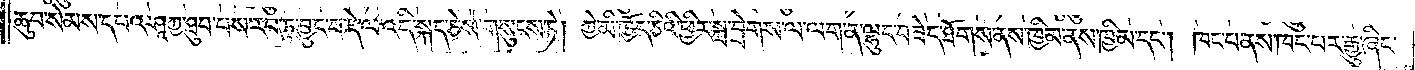ཆུབ་སེམས་དཔའ་ཤཱཀྱ་ཐུབ་པས་རབ་ཏུ་བྱུང་བ་དེ་ལ་འདི་སྐད་ཅེས་གསུངས་ཏེ། ཀྱེ་མི་ཁྱོད་ཅིའི་ཕྱིར་སྐྲ་བྲེགས་ལ་ལག་ན་ལྷུང་བཟེད་ཐོགས་ནས་ཁྱིམ་ནས་ཁྱིམ་དང༌། ཁང་པ་ནས་ཁང་པར་རྒྱུ་ཞིང་
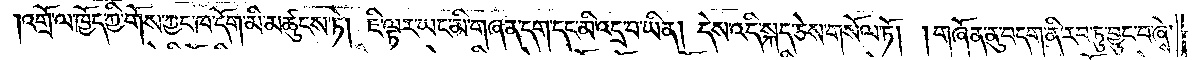།འགྲོ་ལ་ཁྱོད་ཀྱི་གོས་ཀྱང་ཁ་དོག་མི་མཚུངས་ཏེ། ཇི་ལྟར་ཡང་མི་གཞན་དག་དང་མི་འདྲ་བ་ཡིན། དེས་འདི་སྐད་ཅེས་གསོལ་ཏོ། །གཞོན་ནུ་བདག་ནི་རབ་ཏུ་བྱུང་བ་ཞེས་
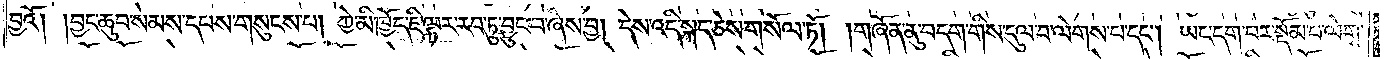བྱའོ། །བྱང་ཆུབ་སེམས་དཔས་གསུངས་པ། ཀྱེ་མི་ཁྱོད་ཇི་ལྟར་རབ་ཏུ་བྱུང་བ་ཞེས་བྱ། དེས་འདི་སྐད་ཅེས་གསོལ་ཏོ། །གཞོན་ནུ་བདག་གིས་དུལ་བ་ལེགས་པ་དང༌། ཡང་དག་པར་སྡོམ་པ་ལེགས་
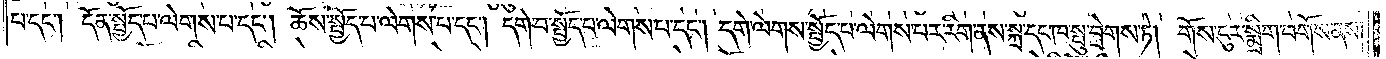པ་དང༌། དོན་སྤྱོད་པ་ལེགས་པ་དང༌། ཆོས་སྤྱོད་པ་ལེགས་པ་དང༌། དགེ་བ་སྤྱོད་པ་ལེགས་པ་དང༌། དགེ་ལེགས་སྤྱོད་པ་ལེགས་པར་རིག་ནས་སྐྲ་དང་ཁ་སྤུ་བྲེགས་ཏེ། གོས་ངུར་སྨྲིག་བགོས་ནས།
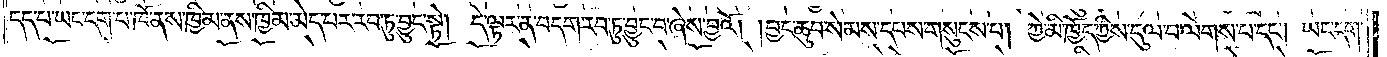དད་པ་ཡང་དག་པ་ཁོ་ནས་ཁྱིམ་ནས་ཁྱིམ་མེད་པར་རབ་ཏུ་བྱུང་སྟེ། དེ་ལྟར་ན་བདག་རབ་ཏུ་བྱུང་བ་ཞེས་བྱའོ། །བྱང་ཆུབ་སེམས་དཔས་གསུངས་པ། ཀྱེ་མི་ཁྱོད་ཀྱིས་དུལ་བ་ལེགས་པ་དང༌། ཡང་དག་
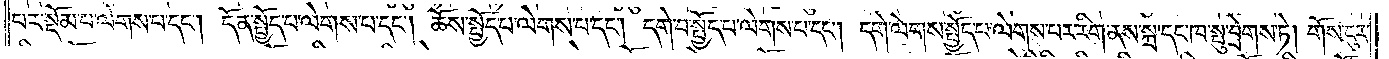པར་སྡོམ་པ་ལེགས་པ་དང༌། དོན་སྤྱོད་པ་ལེགས་པ་དང༌། ཆོས་སྤྱོད་པ་ལེགས་པ་དང༌། དགེ་བ་སྤྱོད་པ་ལེགས་པ་དང༌། དགེ་ལེགས་སྤྱོད་པ་ལེགས་པར་རིག་ནས་སྐྲ་དང་ཁ་སྤུ་བྲེགས་ཏེ། གོས་ངུར་
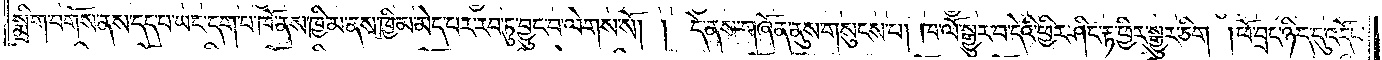སྨྲིག་བགོས་ནས་དད་པ་ཡང་དག་པ་ཁོ་ནས་ཁྱིམ་ནས་ཁྱིམ་མེད་པར་རབ་ཏུ་བྱུང་བ་ལེགས་སོ། །དེ་ནས་གཞོན་ནུས་གསུངས་པ། ཁ་ལོ་སྒྱུར་བ་དེའི་ཕྱིར་ཤིང་རྟ་ཕྱིར་སྒྱུར་ཅིག །ཕོ་བྲང་ཉིད་དུ་འདོང་
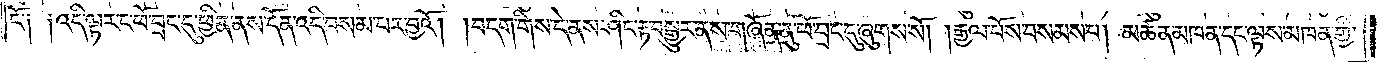ངོ༌། །འདི་ལྟར་རང་ཕོ་བྲང་དུ་ཕྱིན་ནས་དོན་འདི་བསམ་པར་བྱའོ། །བདག་གིས་དེ་ནས་ཤིང་རྟ་བསྒྱུར་ནས་གཞོན་ནུ་ཕོ་བྲང་དུ་ཞུགས་སོ། །རྒྱལ་པོས་བསམས་པ། མཚན་མཁན་དང་ལྟས་མཁན་གྱི་
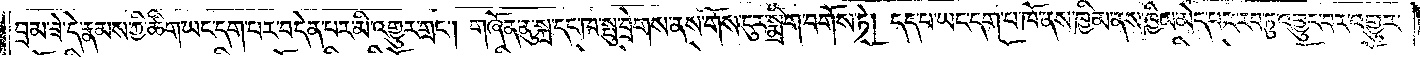བྲམ་ཟེ་དེ་རྣམས་ཀྱི་ཚིག་ཡང་དག་པར་བདེན་པར་མི་འགྱུར་གྲང༌། གཞོན་ནུ་སྐྲ་དང་ཁ་སྤུ་བྲེགས་ནས་གོས་ངུར་སྨྲིག་བགོས་ཏེ། དད་པ་ཡང་དག་པ་ཁོ་ནས་ཁྱིམ་ནས་ཁྱིམ་མེད་པར་རབ་ཏུ་འབྱུང་བར་འགྱུར་
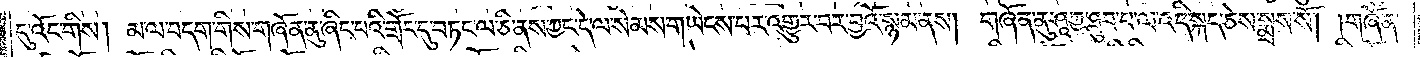དུ་འོང་གིས། མ་ལ་བདག་གིས་གཞོན་ནུ་ཞིང་བའི་གྲོང་དུ་བཏང་ལ་ཅི་ནས་ཀྱང་དེ་ལ་སེམས་གཡེངས་པར་འགྱུར་བར་བྱའོ་སྙམ་ནས། གཞོན་ནུ་ཤཱཀྱ་ཐུབ་པ་ལ་འདི་སྐད་ཅེས་སྨྲས་སོ། །གཞོན་
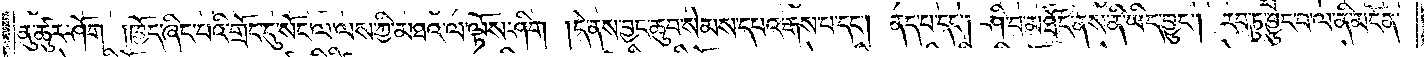ནུ་ཚུར་ཤོག །ཁྱོད་ཞིང་པའི་གྲོང་དུ་སོང་ལ་ལས་ཀྱི་མཐའ་ལ་ལྟོས་ཤིག །དེ་ནས་བྱང་ཆུབ་སེམས་དཔའ་རྒས་པ་དང༌། ནད་པ་དང༌། ཤི་བ་མཐོང་ནས་ནི་ཡིད་བྱུང༌། རབ་ཏུ་བྱུང་བ་ལ་ནི་མངོན་
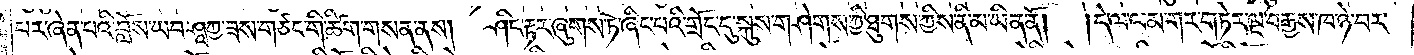པར་ཞེན་པའི་བློས་ཡབ་ཤཱཀྱ་ཟས་གཙང་གི་ཚིག་གསན་ནས། ཤིང་རྟར་ཞུགས་ཏེ་ཞིང་པའི་གྲོང་དུ་སྐུས་གཤེགས་ཀྱི་ཐུགས་ཀྱིས་ནི་མ་ཡིན་ནོ། །དེ་ལ་ལམ་གར་གཏེར་ལྔ་བརྒྱས་ཁ་ཉེ་བར་
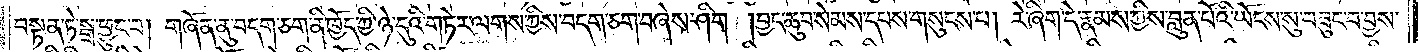བསྟན་ཏེ་སྒྲ་ཕྱུང་བ། གཞོན་ནུ་བདག་ཅག་ནི་ཁྱོད་ཀྱི་ཉེ་དུའི་གཏེར་ལགས་ཀྱིས་བདག་ཅག་བཞེས་ཤིག །བྱང་ཆུབ་སེམས་དཔས་གསུངས་པ། རེ་ཞིག་དེ་རྣམས་ཀྱིས་བླུན་པོའི་ཡོངས་སུ་བཟུང་བ་བྱས་
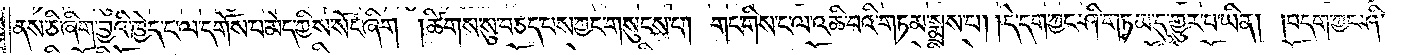ནས་ཅི་ཞིག་བྱའི་ཁྱེད་ང་ལ་དགོས་པ་མེད་ཀྱིས་སོང་ཞིག །ཚིགས་སུ་བཅད་པས་ཀྱང་གསུངས་པ། གང་གིས་ང་ལ་འཆི་བའི་གཏམ་སྨྲས་པ། །དེ་དག་ཀྱང་ཤི་གཏམ་དུ་གྱུར་པ་ཡིན། །བདག་ཀྱང་ཤི་
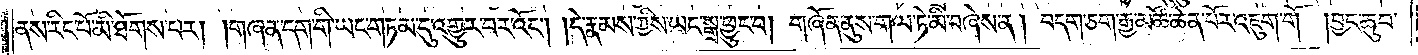ནས་རིང་པོ་མི་ཐོགས་པར། །གཞན་དག་གི་ཡང་གཏམ་དུ་འགྱུར་བར་འོང༌། །དེ་རྣམས་ཀྱིས་ཡང་སྒྲ་ཕྱུང་བ། གཞོན་ནུས་གལ་ཏེ་མི་བཞེས་ན། བདག་ཅག་རྒྱ་མཚོ་ཆེན་པོར་འཇུག་གོ །བྱང་ཆུབ་
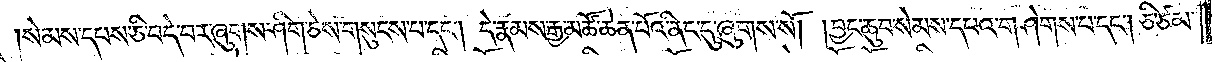སེམས་དཔས་ཅི་བདེ་བར་ཞུགས་ཤིག་ཅེས་གསུངས་པ་དང༌། དེ་རྣམས་རྒྱ་མཚོ་ཆེན་པོའི་ནང་དུ་ཞུགས་སོ། །བྱང་ཆུབ་སེམས་དཔའ་གཤེགས་པ་དང༌། ཅི་ཙམ་
